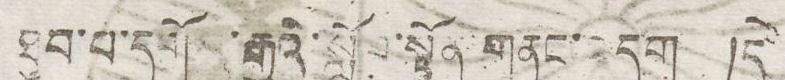ཐུབ་པ་དགོས་རྒྱུའི་སློབ་སྟོན་གནང་འདུག །དེ་
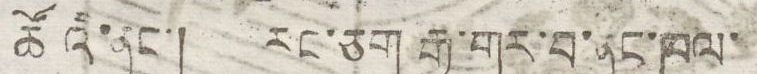ཚོའི་ནང་། རང་ཅག རྒྱ་གར་བ་ནང་ཁུལ་
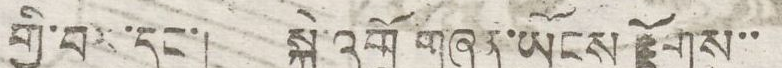གྱི་བར་དང་། སྐྱེ་འགྲོ་གཞན་ཡོང་རྫོགས་་
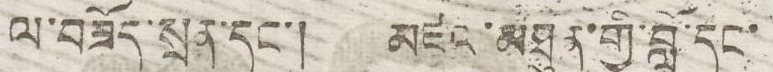ལ་བཟོད་སྲན་དང་། མཛའ་མཐུན་གྱི་བློ་དང་
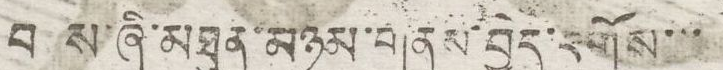བནས་ཞི་མཐུན་མཉམ་གནམ་བྱེད་དགོས་་་
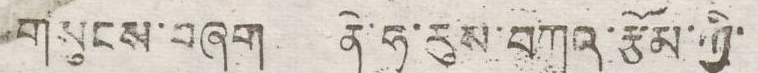གསུངས་བཞག དེ་ཧ་རུས་བཀའ་རྩོམ་གྱི་
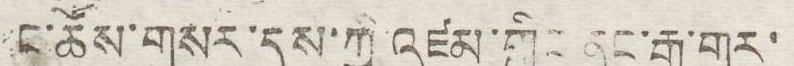ང་ཚོས་གསར་དུས་ཀྱི་འཛམ་གླིང་ནང་རྒྱ་གར་
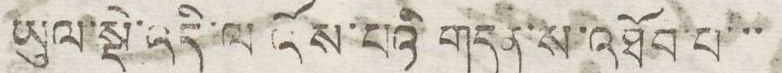ཡུལ་སྡེ་འདི་ལ་ འོས་པའི་གདན་ས་འཐོབ་པ་་་
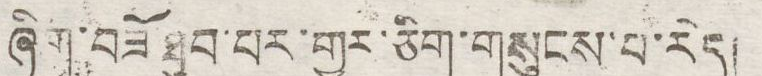ཞིག་བཟོ ཐུབ་པར་གྱུར་ཅིག་གསུངས་པ་རེད།
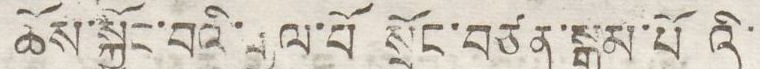ཆོས་སྐྱོང་བའི་རྒྱལ་པོ སྲོང་བཙན་སྒམ་པོ འི་
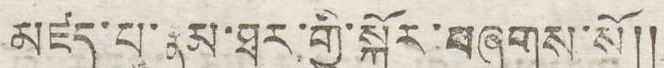མཛད་པ་རྣམ་ཐར་གྱི་སྐོར་བཞུགས་སོ།།
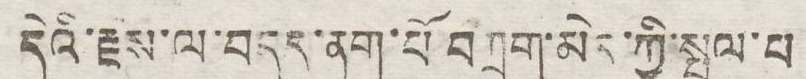དེའི་རྫས་ལ་བདུད་ནག་པོ བཀྲག་མོར་གྱི་སྤྲུལ་པ
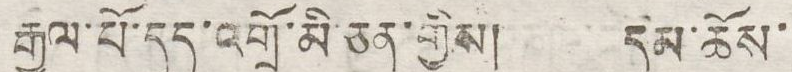རྒྱལ་པོ་དུད་འགྲོ་མི་ཅན་གྱིས། དམ་ཆོས་
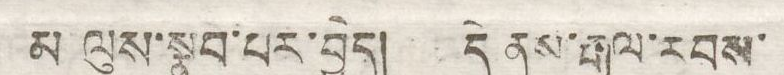མ ལུས་སྣུབ་པར་བྱེད། དེ ནས་རྒྱལ་རབས་
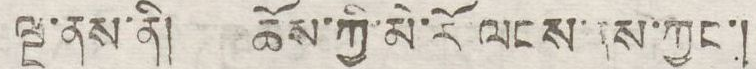ལྔ་ནས་ནི། ཆོས་ཀྱི་མེ་རོ་ལངས་ནས་ཀྱང་།
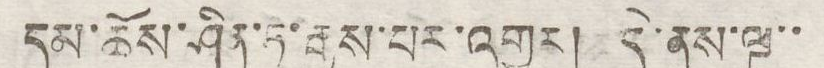དམ་ཆོས་ཤིན་ཏུ་རྒྱས་པར་འགྱུར། དེ་ནས་ལྔ་་
